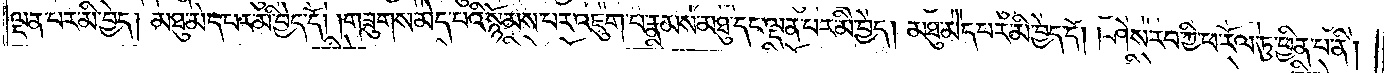ལྡན་པར་མི་བྱེད། མཐུ་མེད་པར་མི་བྱེད་དོ། །གཟུགས་མེད་པའི་སྙོམས་པར་འཇུག་པ་རྣམས་མཐུ་དང་ལྡན་པར་མི་བྱེད། མཐུ་མེད་པར་མི་བྱེད་དོ། །ཤེས་རབ་ཀྱི་ཕ་རོལ་ཏུ་ཕྱིན་པ་ནི།
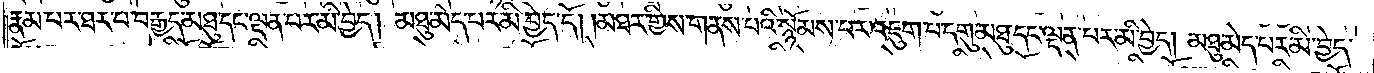རྣམ་པར་ཐར་པ་བརྒྱད་མཐུ་དང་ལྡན་པར་མི་བྱེད། མཐུ་མེད་པར་མི་བྱེད་དོ། །མཐར་གྱིས་གནས་པའི་སྙོམས་པར་འཇུག་པ་དགུ་མཐུ་དང་ལྡན་པར་མི་བྱེད། མཐུ་མེད་པར་མི་བྱེད་
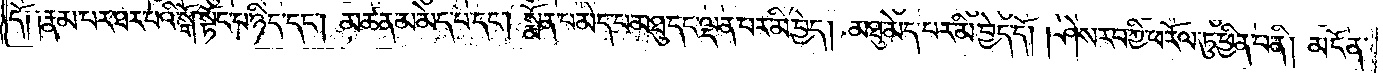དོ༑ ༑རྣམ་པར་ཐར་པའི་སྒོ་སྟོང་པ་ཉིད་དང༌། མཚན་མ་མེད་པ་དང༌། སྨོན་པ་མེད་པ་མཐུ་དང་ལྡན་པར་མ་བྱེད། མཐུ་མེད་པར་མི་བྱེད་དོ། ཤེས་རབ་ཀྱི་ཕ་རོལ་ཏུ་ཕྱིན་པ་ནི། མངོན་
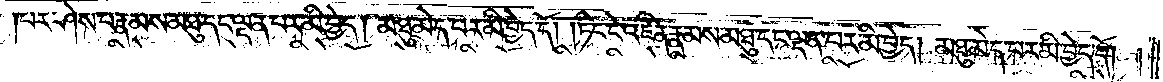པར་ཤེས་པ་རྣམས་མཐུ་དང་ལྡན་པར་མི་བྱེད། མཐུ་མེད་པར་མི་བྱེད་དོ། །ཏིང་ངེ་འཛིན་རྣམས་མཐུ་དང་ལྡན་པར་མི་བྱེད། མཐུ་མེད་པར་མི་བྱེད་དོ། །
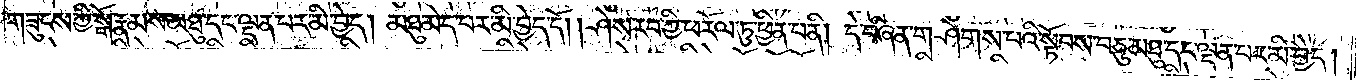གཟུངས་ཀྱི་སྒོ་རྣམས་མཐུ་དང་ལྡན་པར་མི་བྱེད། མཐུ་མེད་པར་མི་བྱེད་དོ། །ཤེས་རབ་ཀྱི་ཕ་རོལ་ཏུ་ཕྱིན་པ་ནི། དེ་བཞིན་གཤེགས་པའི་སྟོབས་བཅུ་མཐུ་དང་ལྡན་པར་མི་བྱེད།
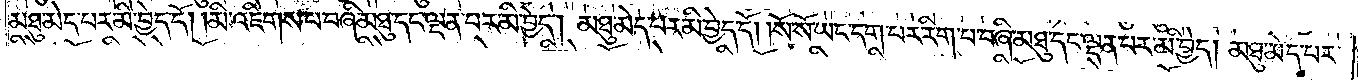མཐུ་མེད་པར་མི་བྱེད་དོ། །མི་འཇིགས་པ་བཞི་མཐུ་དང་ལྡན་པར་མི་བྱེད། མཐུ་མེད་པར་མི་བྱེད་དོ། །སོ་སོ་ཡང་དག་པར་རིག་པ་བཞི་མཐུ་དང་ལྡན་པར་མི་བྱེད། མཐུ་མེད་པར་
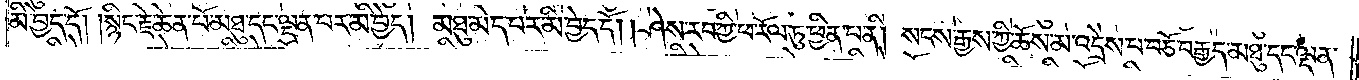མི་བྱེད་དོ། །སྙིང་རྗེ་ཆེན་པོ་མཐུ་དང་ལྡན་པར་མི་བྱེད། མཐུ་མེད་པར་མི་བྱེད་དོ། །ཤེས་རབ་ཀྱི་ཕ་རོལ་ཏུ་ཕྱིན་པ་ནི། སངས་རྒྱས་ཀྱི་ཆོས་མ་འདྲེས་པ་བཅོ་བརྒྱད་མཐུ་དང་ལྡན་
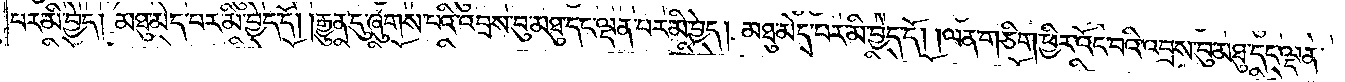པར་མི་བྱེད། མཐུ་མེད་པར་མི་བྱེད་དོ། །རྒྱུན་དུ་ཞུགས་པའི་འབྲས་བུ་མཐུ་དང་ལྡན་པར་མི་བྱེད། མཐུ་མེད་པར་མི་བྱེད་དོ། །ལན་གཅིག་ཕྱིར་འོང་བའི་འབྲས་བུ་མཐུ་དང་ལྡན་
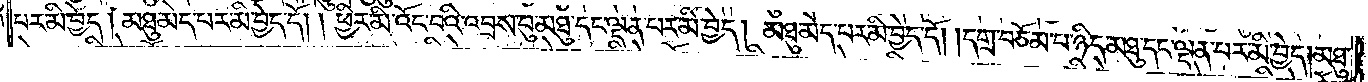པར་མི་བྱེད། མཐུ་མེད་པར་མི་བྱེད་དོ། །ཕྱིར་མི་འོང་བའི་འབྲས་བུ་མཐུ་དང་ལྡན་པར་མི་བྱེད། མཐུ་མེད་པར་མི་བྱེད་དོ། །དགྲ་བཅོམ་པ་ཉིད་མཐུ་དང་ལྡན་པར་མི་བྱེད། མཐུ་
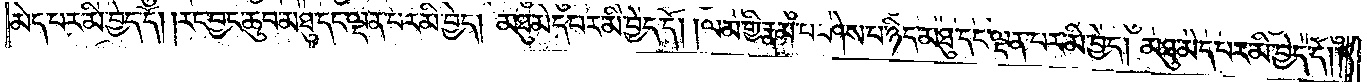མེད་པར་མི་བྱེད་དོ། །རང་བྱང་ཆུབ་མཐུ་དང་ལྡན་པར་མི་བྱེད། མཐུ་མེད་པར་མི་བྱེད་དོ། །ལམ་གྱི་རྣམ་པ་ཤེས་པ་ཉིད་མཐུ་དང་ལྡན་པར་མི་བྱེད། མཐུ་མེད་པར་མི་བྱེད་དོ༎
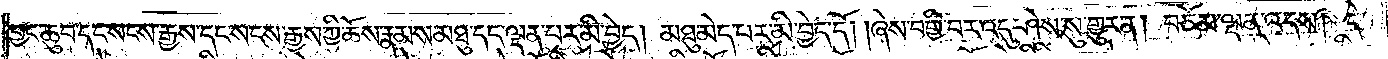བྱང་ཆུབ་དང་སངས་རྒྱས་དང་སངས་རྒྱས་ཀྱི་ཆོས་རྣམས་མཐུ་དང་ལྡན་པར་མི་བྱེད། མཐུ་མེད་པར་མི་བྱེད་དོ། །ཞེས་བགྱི་བར་འདུ་ཤེས་སུ་གྱུར་ན། བཅོམ་ལྡན་འདས། དེ་
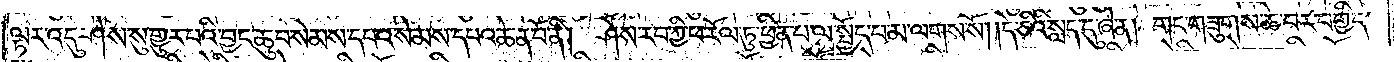ལྟར་འདུ་ཤེས་སུ་གྱུར་པའི་བྱང་ཆུབ་སེམས་དཔའ་སེམས་དཔའ་ཆེན་པོ་ནི། ཤེས་རབ་ཀྱི་ཕ་རོལ་ཏུ་ཕྱིན་པ་ལ་སྤྱོད་པ་མ་ལགས་སོ། །དེ་ཅིའི་སླད་དུ་ཞེ་ན། གང་གཟུགས་ཆེ་བར་བགྱིད་
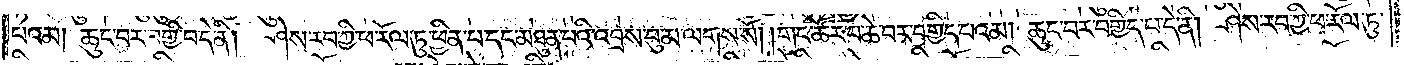པའམ། ཆུང་བར་བགྱི་བ་དེ་ནི། ཤེས་རབ་ཀྱི་ཕ་རོལ་ཏུ་ཕྱིན་པ་དང་མཐུན་པའི་འབྲས་བུ་མ་ལགས་སོ། །གང་ཚོར་བ་ཆེ་བར་བགྱིད་པའམ། ཆུང་བར་བགྱིད་པ་དེ་ནི། ཤེས་རབ་ཀྱི་ཕ་རོལ་ཏུ་
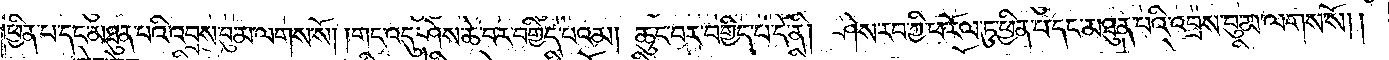ཕྱིན་པ་དང་མཐུན་པའི་འབྲས་བུ་མ་ལགས་སོ། །གང་འདུ་ཤེས་ཆེ་བར་བགྱིད་པའམ། ཆུང་བར་བགྱིད་པ་དེ་ནི། ཤེས་རབ་ཀྱི་ཕ་རོལ་ཏུ་ཕྱིན་པ་དང་མཐུན་པའི་འབྲས་བུ་མ་ལགས་སོ། །
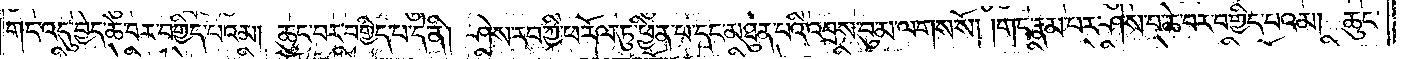གང་འདུ་བྱེད་ཆེ་བར་བགྱིད་པའམ། ཆུང་བར་བགྱིད་པ་དེ་ནི། ཤེས་རབ་ཀྱི་ཕ་རོལ་ཏུ་ཕྱིན་པ་དང་མཐུན་པའི་འབྲས་བུ་མ་ལགས་སོ། །གང་རྣམ་པར་ཤེས་པ་ཆེ་བར་བགྱིད་པའམ། ཆུང་
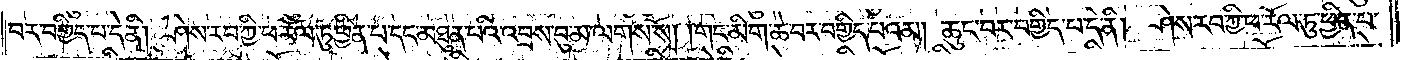བར་བགྱིད་པ་དེ་ནི། ཤེས་རབ་ཀྱི་ཕ་རོལ་ཏུ་ཕྱིན་པ་དང་མཐུན་པའི་འབྲས་བུ་མ་ལགས་སོ། །གང་མིག་ཆེ་བར་བགྱིད་པའམ། ཆུང་བར་བགྱིད་བ་དེ་ནི། ཤེས་རབ་ཀྱི་ཕ་རོལ་ཏུ་ཕྱིན་པ་
